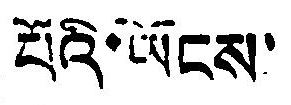པོའི་ཡོངས་
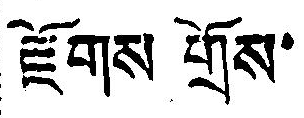རྫོགས གྲོས་
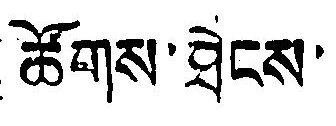ཚོགས་ཐེངས་
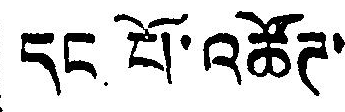དང པོ་འཚོཊ་
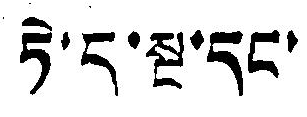ཏེ་ད་སྔ་དང་
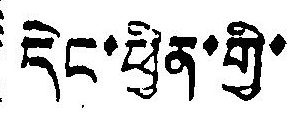དེང་ཕྱིན་གྱི་
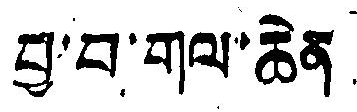བྱ་བ་གལ་ཆེན
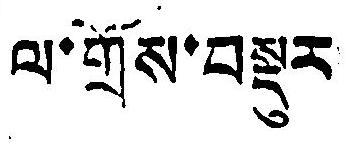ལ་གྲོས་བསྡུར
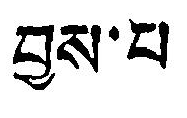བྱས་པ
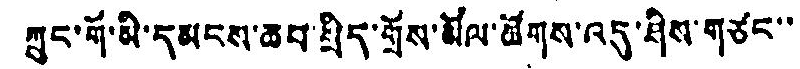ཀྲུང་གོ་མི་དམངས་ཆབ་སྲིད་གྲོས་མོལ་ཚོགས་འདུ་ཤིས་གཙང་་
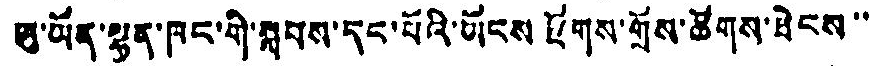ཨུ་ཡོན་ལྷན་ཁང་གི་སྐབས་དང་པོའི་ཡོངས རྫོགས་གྲོས་ཚོགས་ཐེངས་་
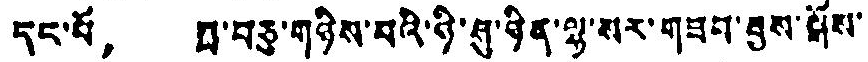དང་པོ， ཟླ་བཅུ་གཉིས་པའི་ཉི་ཤུ་ཉིན་ལྷ་སར་གཟབ་བྱས་སྒོས་
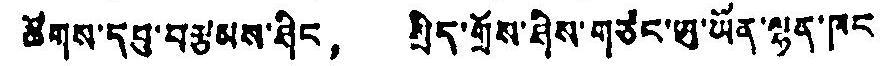ཚོགས་དབུ་བརྩམས་ཤིང， སྲིད་གྲོས་ཤིས་གཙང་ཨུ་ཡོན་ལྷན་ཁང
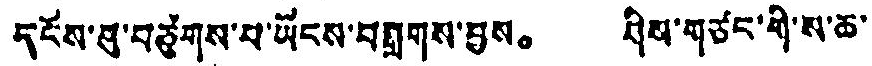དངོས་བུ་བཙུགས་པ་ཡོངས་བསྒྲགས་བྱས。 ཤིས་གཙང་གི་ས་ཆ་
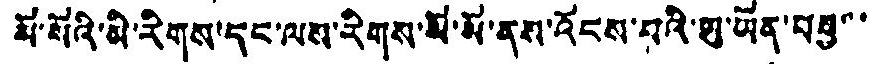སོ་སོའི་མི་རིགས་དང་ལས་རིགས་སོ་མོ་ནས་འོངས་པའི་ཨུ་ཡོན་བསུ་་་་
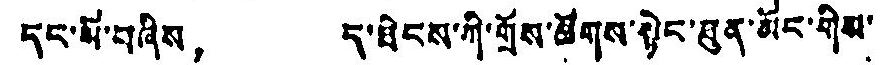དང་སོ་བཞིས， ད་ཐེངས་ཀྱི་གྲོས་ཚོགས་སྟེང་ཐུན་མོང་གིས་
